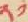༢༡
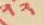༢༢
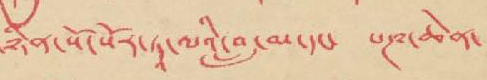ཉིན་སོ་སོར་ཏཱ་ལའི་བླ་མ་དང་ པཎ་ཆེན་
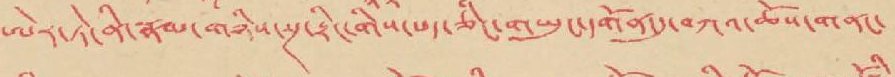ཨེར་ཏེ་ནི་རྣམ་གཉིས་སྔ་རྟིང་གིས་པད་ཅིང་གཡུང་དགོན་དུ་བཀའ་ཆོས་གནང་
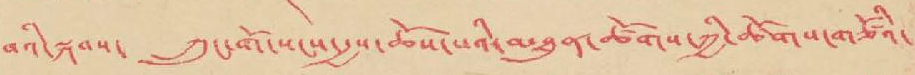བའི་སྐབས་ ཀྲུང་གོ་སངས་རྒྱས་ཆོས་པའི་མཐུན་ཚོགས་ཀྱི་ཚོགས་གཙོའོ་
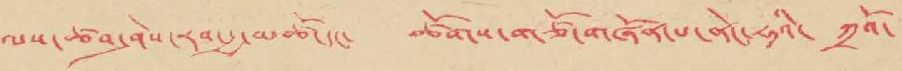ལས་ཚབ་ཤེས་རབ་རྒྱ་མཚོ་དང་ ཚོགས་གཙོ་གཞོན་པ་ནེང་ཧའི་ ཀྲའོ་
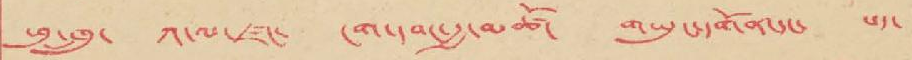ཕུ་ཁྲུ་ ཀ་ལ་ཛང་ ངག་དབང་རྒྱ་མཚོ་ གཡུང་དགོན་དང་ པད་
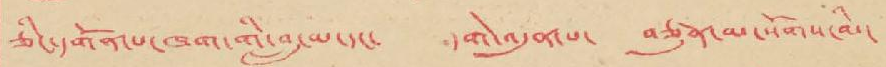ཅིང་དགོན་པ་ཁག་གི་བླ་མ་དང་ དགེ་འདུན་པ་ བཙུན་མ་སོགས་མི་
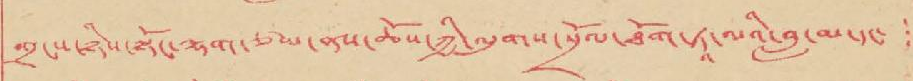གྲངས་ཉིས་སྟོང་ལྷག་ཙམ་ནས་ཆོས་ཀྱི་ལུགས་སྲོལ་ཐོག་ཏཱ་ལའི་བླ་མ་དང་
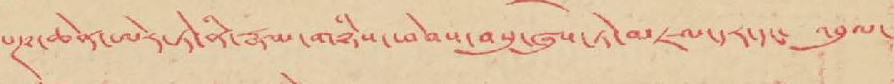པཎ་ཆེན་ཨེར་ཏེ་ནི་རྣམ་གཉིས་ཕེབས་བསུ་ཞུས་ཏེ་མཇལ་དར་ འབུལ་
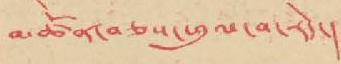མཚོན་བཅས་ཕུལ་བ་རེད་།
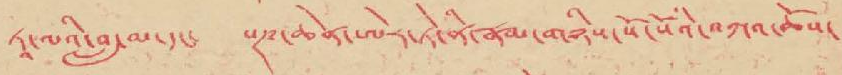ཏཱ་ལའི་བླ་མ་དང་ པཎ་ཆེན་ཨེར་ཏེ་ནི་རྣམ་གཉིས་སོ་སོའི་བཀའ་ཆོས་
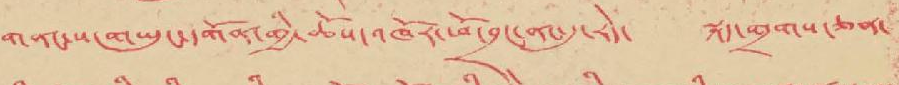གནང་ས་གཡུང་དགོན་གྱི་ཆོས་འཁོར་ཕོ་བྲང་ནང་དུ་རེད་ སྐད་གྲགས་ཅན་
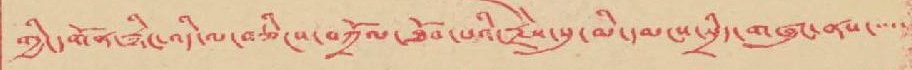གྱི་དགོན་རྙིང་འདི་ལ་བཅིངས་བཀྲོལ་ཐོབ་པའི་རྗེས་སུ་མི་དམངས་སྲིད་གཞུང་ནས་་་་་
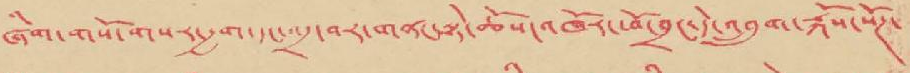ཞིག་གསོ་གསར་རྒྱག་དང་འདྲ་བར་གནང་སྟེ་ཆོས་འཁོར་ཕོ་བྲང་དེ་འབྲུག་རྐོས་སོཊ་
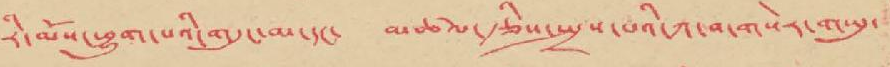རི་མོས་ཕྱུག་པའི་གདུང་མ་དང་ མཚལ་རྩིས་སྤྲས་པའི་ཀ་བ་གསེར་གཡུ་
